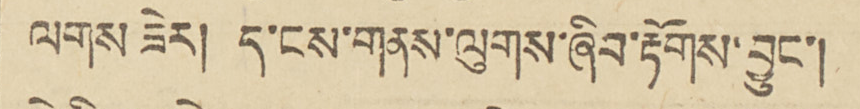ལགས ཟེར། ད་ངས་གནས་ལུགས་ཞིབ་རྟོགས་བྱུང་།
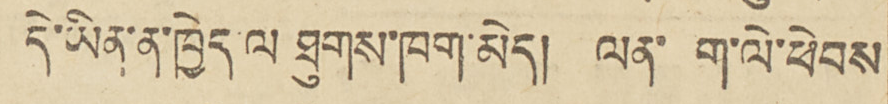དེ་ཡིན་ན་ཁྱེད ལ ཐུགས་ཁག་མེད། ལན་ག་ལེ་ཕེབས
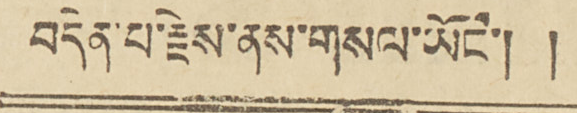བདེན་པ་རྗེས་ནས་གསལ་ཡོང་།།
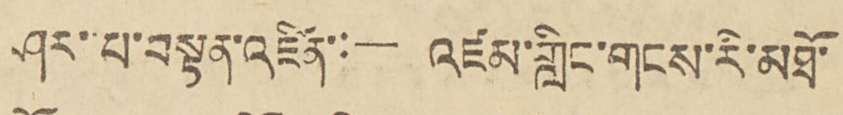ཤར་པ་བསྟན་འཛིན་:— འཛམ་གླིང་གངསརི་མཐོ་
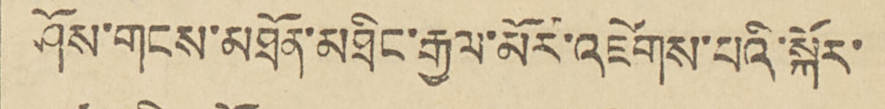ཤོས་གངས་མཐོན་མཐིང་རྒྱལ་མོར་འཛེགས་པའི་སྐོར་
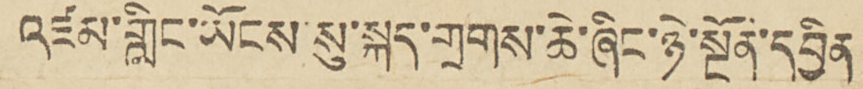འཛམ་གླིང་ཡོངས་སུ་སྐད་གྲགས་ཆེ་ཞིང་ཉེ་སྔོན་དབྱིན
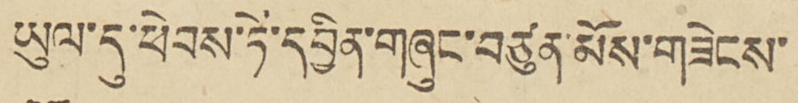ཡུལ་དུ་ཕེབས་ཏེ་དབྱིན་གཞུང་བཙུན་མོས་གཟེངས་
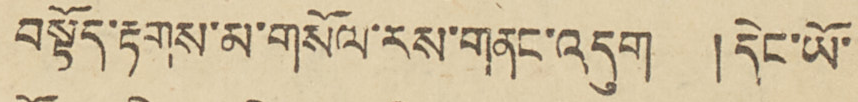བསྟོད་རྟགས་མ་གསོལ་རས་གནང་འདུག །དེང་ཡོ་
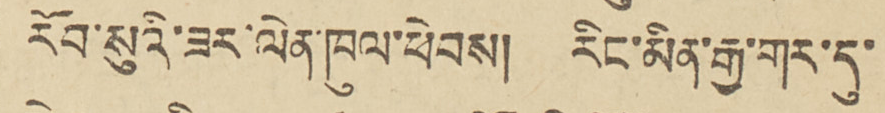རོབ་སུའི་ཟར་ལེན་ཁུལ་ཕེབས། རིང་མིན་རྒྱ་གར་དུ་
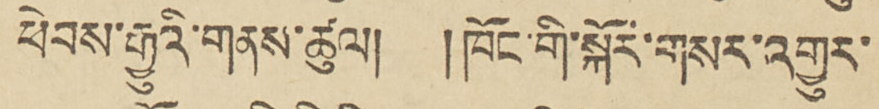ཕེབས་རྒྱུའི་གནས་ཚུལ། །ཁོ་གི་སྐོར་གསར་འགྱུར་
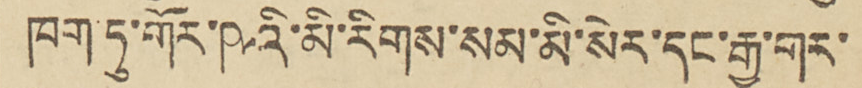ཁག་ཏུ་གོར་ཥའི་མི་རིགས་སམ་མི་སེར་དང་རྒྱ་གར་
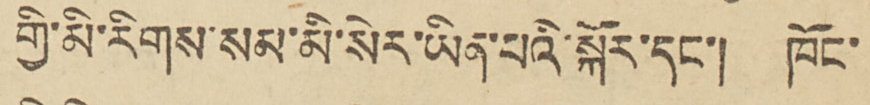གྱི་མི་རིགས་སམ་མི་སེར་ཡིན་པའི་སྐོར་དང་། ཁོང་
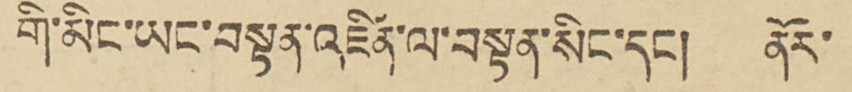གི་མིང་ཡང་བསྟན་འཛིན་ལ་བསྟན་སིང་དང། ནོད་
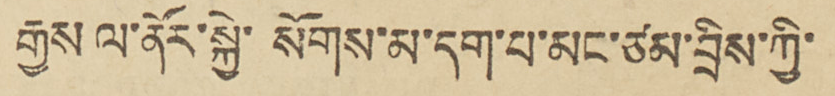རྒྱས ལ་ནོར་སྐྱེ་སོགས་མ་དག་པ་མང་ཙམ་བྲིས་ཀྱི་
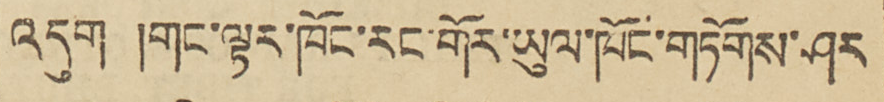འདུག །གང་ལྟར་ཁོང་རང་གོར་ཡུལ་ཁོང་གཏོགས་ཤར་
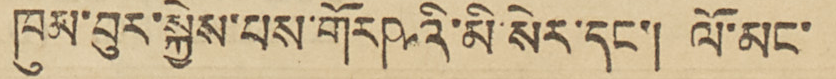ཁུམ་མུར་སྐྱེས་པས་གོར ཥའི་མི་སེར་དང་། ལོ་མང་
